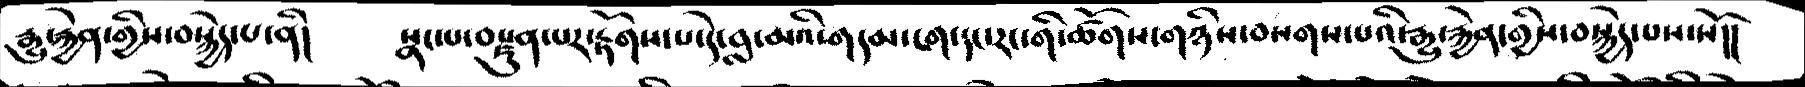རྒྱུ་རྐྱེན་གྱིས་བསྐྱེད་པ་ནི།   སྣང་པ་བརྫུན་པར་རྟོགས་པ་དེ་བླ་མའི་གདམ་ངག་དང་རང་གི་ཚོགས་གཉིས་བསགས་པའི་རྒྱུ་རྐྱེན་གྱིས་བསྐྱེད་པས་སོ།།
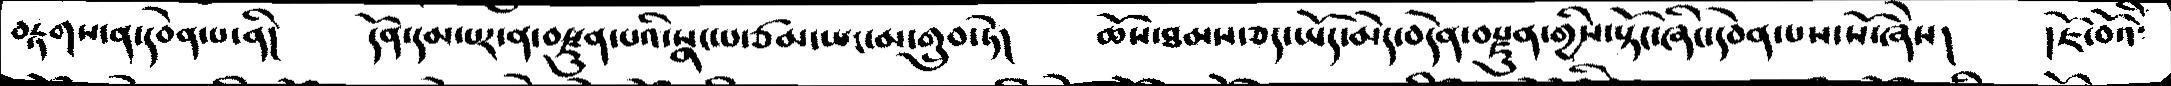བརྟགས་ན་དབེན་པ་ནི།   དོན་དམ་པར་ན་བརྫུན་པའི་སྣང་པ་ཙམ་ཡང་མ་གྲུབ་ཏེ།    ཆོས་ཐམས་ཅད་ཡོད་མེད་བདེན་བརྫུན་གྱི་སྟོང་ཞིང་དབེན་པས་སོ་ཞེས།   །ཇོ་བོའི་
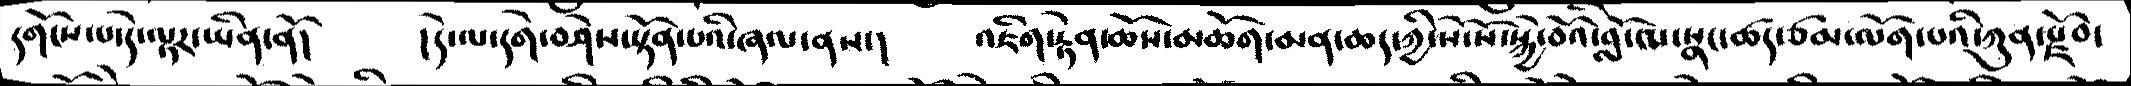དགོངས་པ་དེ་ལྟར་ཡིན་ནོ།   །དེ་ལ་དགེ་བཤེས་སྟོན་པའི་ཞལ་ནས་།   འཇིག་རྟེན་ཆོས་མཆོག་མན་ཆད་ཀྱི་སོ་སོ་སྐྱེ་བོའི་བློ་ལ་སྣང་ཚད་ཙམ་ལོག་པའི་ཀུན་རྫོབ་
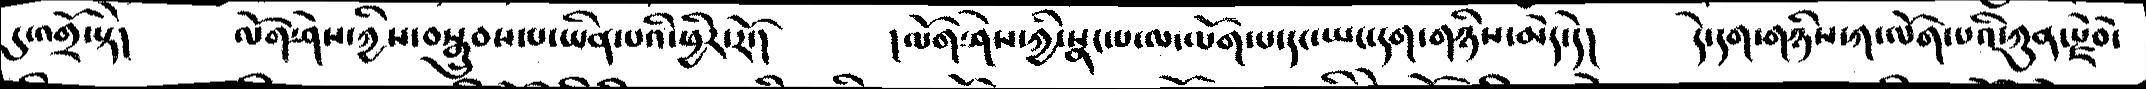དུ་འགྲོ་སྟེ།   ལོག་ཤེས་ཀྱིས་བསྒྲུབས་པ་ཡིན་པའི་ཕྱིར་རོ་།   །ལོག་ཤེས་ཀྱི་སྣང་པ་ལ་ལོག་པ་དང་ཡང་དག་གཉིས་མེད་དེ།   དེ་དག་གཉིས་ཀ་ལོག་པའི་ཀུན་རྫོབ་
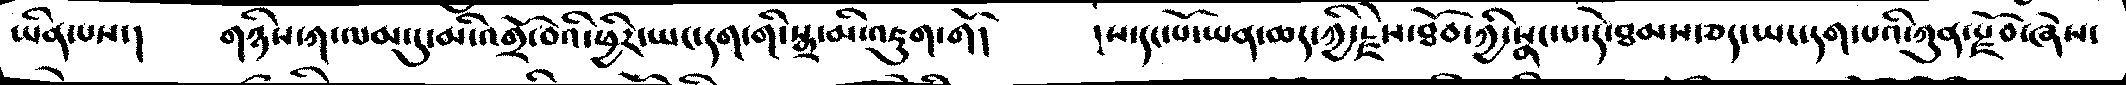ཡིན་པས་།   གཉིས་ཀ་ལམ་དུ་མི་འགྲོ་བའི་ཕྱིར་ཡང་དག་གི་སྒྲ་མི་འཇུག་གོ།    །ས་དང་པོ་ཡན་ཆད་ཀྱི་རྗེས་ཐོབ་ཀྱི་སྣང་པ་དེ་ཐམས་ཅད་ཡང་དག་པའི་ཀུན་རྫོབ་ཞེས་
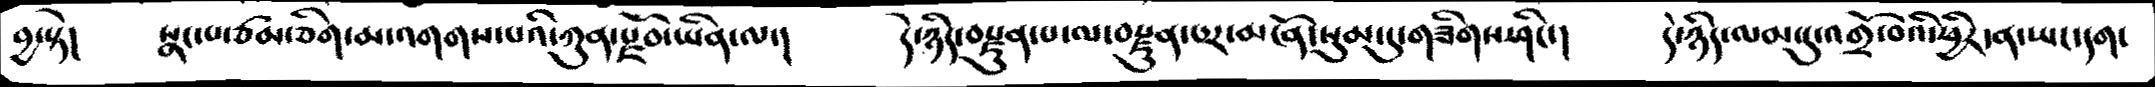བྱ་སྟེ།   སྣང་བ་ཙམ་ཅིག་མ་འགགས་པའི་ཀུན་རྫོབ་ཡིན་ལ་།    དེ་ཉིད་བརྫུན་པ་ལ་བརྫུན་པར་མངོན་སུམ་དུ་གཟིགས་ཤིང་།    དེ་ཉིད་ལམ་དུ་འགྲོ་བའི་ཕྱིར་ན་ཡང་དག་
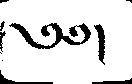༄༅།
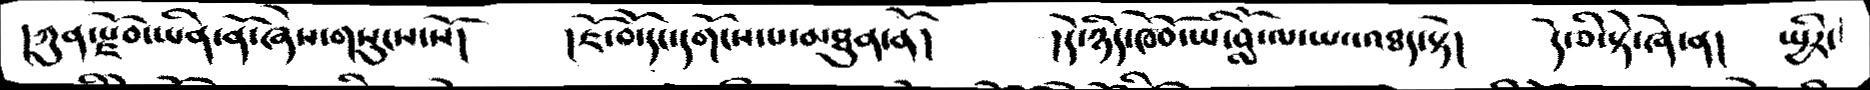།ཀུན་རྫོབ་ཡིན་ནོ་ཞེས་གསུངས་སོ།    །ཇོ་བོ་དང་དགོངས་པ་མཐུན་ནོ།    །དེ་ཉིད་ཁོ་བོ་ཡི་བློ་ལ་ཡང་འཐད་སྟེ།   དེ་ཅི་སྟེ་ཞེ་ན།   སྤྱིར་
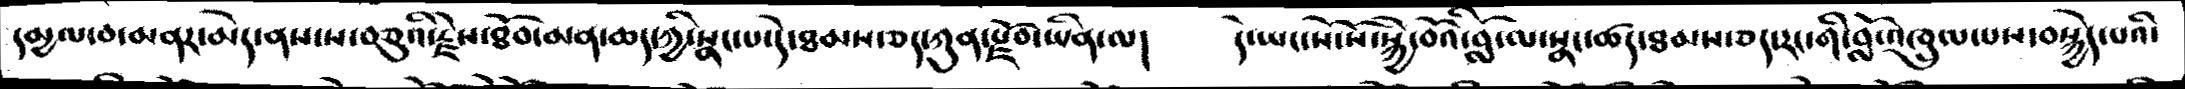དམྱལ་བ་མནར་མེད་ནས་ས་བཅུའི་རྗེས་ཐོབ་མན་ཆད་ཀྱི་སྣང་པ་དེ་ཐམས་ཅད་ཀུན་རྫོབ་ཡིན་ལ།   དེ་ཡང་སོ་སོ་སྐྱེ་བོའི་བློ་ལ་སྣང་ཚད་ཐམས་ཅད་རང་གི་བློ་འཁྲུལ་པས་བསྐྱེད་པའི་
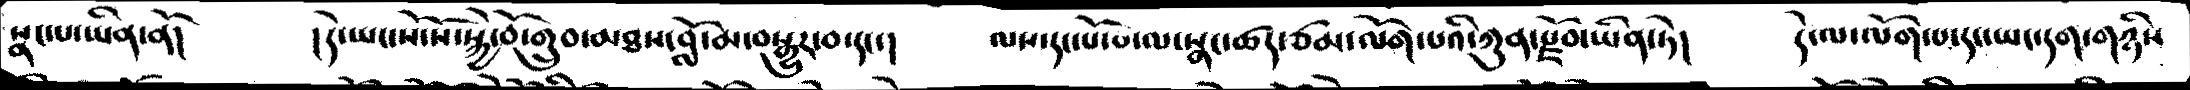སྣང་པ་ཡིན་ནོ།   །དེ་ཡང་སོ་སོ་སྐྱེ་བོ་གྲུབ་མཐས་བློ་མ་བསྒྱུར་བ་དང་།   ལས་དང་པོ་པ་ལ་སྣང་ཚད་ཙམ་ལོག་པའི་ཀུན་རྫོབ་ཡིན་ཏེ།   དེ་ལ་ལོག་པ་དང་ཡང་དག་གཉིས་
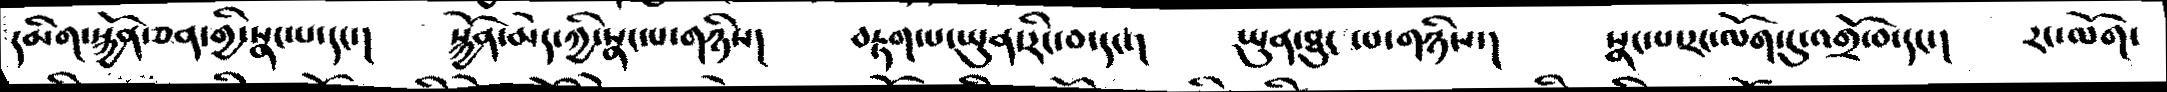དམིག་སྐྱོན་ཅན་གྱི་སྣང་པ་དང་།    སྐྱོན་མེད་ཀྱི་སྣང་པ་གཉིས།   བརྟག་པ་ཡུན་རིང་བ་དང་།   ཡུན་ཐུང་པ་གཉིས་།   སྣང་པ་རང་ལོག་དུ་འགྲོ་བ་དང་།   རང་ལོག་
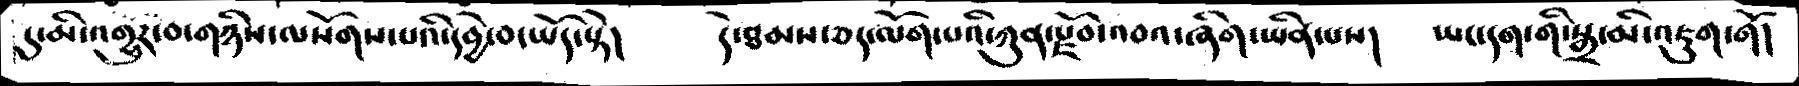དུ་མི་འགྱུར་བ་གཉིས་ལསོགས་པའི་དབྱེ་བ་ཡོད་སྟེ།    དེ་ཐམས་ཅད་ལོག་པའི་ཀུན་རྫོབ་འབའ་ཞིག་ཡིན་པས།   ཡང་དག་གི་སྒྲ་མི་འཇུག་གོ།
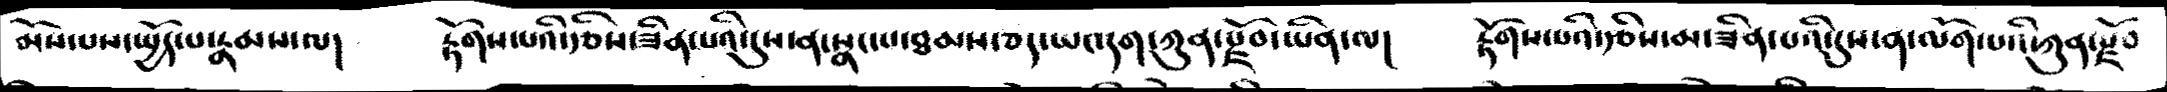མོས་པས་སྤྱོད་པ་རྣམས་ལ།   རྟོགས་པའི་རྩིས་ཟིན་པའི་དུས་ན་སྣང་པ་ཐམས་ཅད་ཡང་དག་ཀུན་རྫོབ་ཡིན་ལ།   རྟོགས་པའི་རྩིས་མ་ཟིན་པའི་དུས་ན་ལོག་པའི་ཀུན་རྫོབ
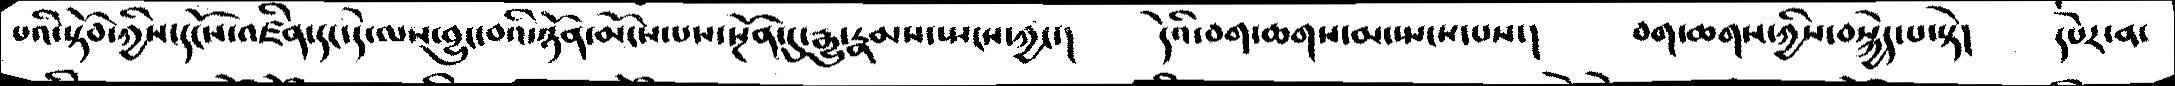པའི་སྟོབ་ཀྱིས་དངོས་འཛིན་དང་དེ་ལས་བྱུང་བའི་ཉོན་མོངས་པས་སྔོན་དུ་རྒྱུ་རྣམས་སྤངས་ཀྱང་།   དེའི་བག་ཆགས་མ་སྤངས་པས་།   བག་ཆགས་ཀྱིས་བསྐྱེད་པ་སྟེ།   དཔེར་ན་
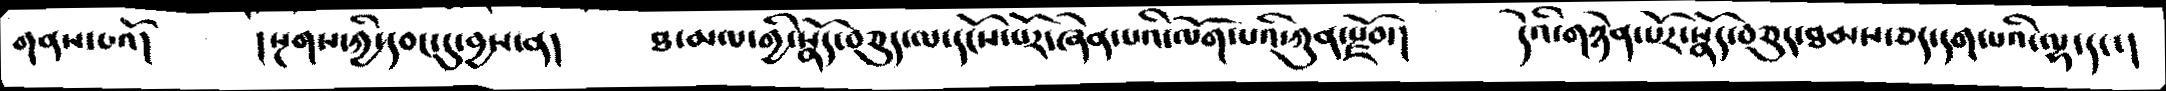གནས་པའོ།   །སྔགས་ཀྱི་དབང་དུ་བྱས་ན།    ཐ་མལ་གྱི་སྣོད་བཅུད་ལ་དངོས་པོར་ཞེན་པའི་ལོག་པའི་ཀུན་རྫོབ་།   དེའི་གཉེན་པོར་སྣོད་བཅུད་ཐམས་ཅད་དག་པའི་ལྷ་དང་།
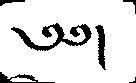༄༅།
